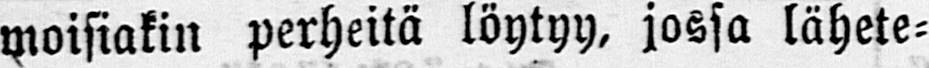moisiakin perheitä löytyy, jossa lähete-
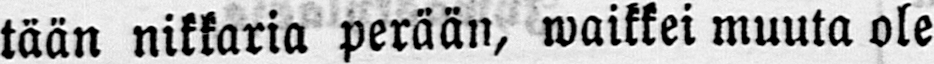tään nikkaria perään, waikkei muuta ole
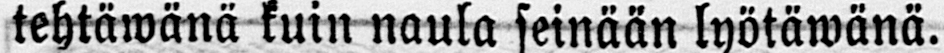tehtäwänä kuin naula seinään lyötäwänä.
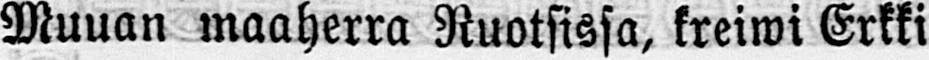Muuan maaherra Ruotsissa, kreiwi Erkki
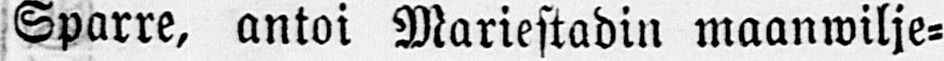Sparre, antoi Mariestadin maanwilje-
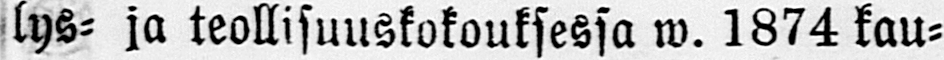lys- ja teollisuuskokouksessa w. 1874 kau-
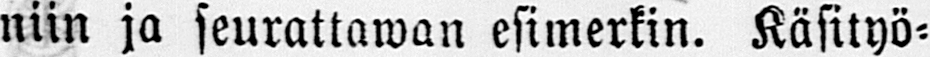niin ja seurattawan esimerkin. Käsityö-
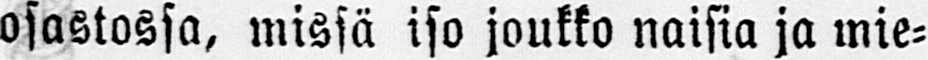osastossa, missä iso joukko naisia ja mie-
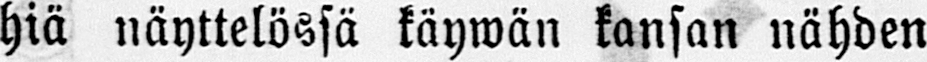hiä näyttelössä käywän kansan nähden
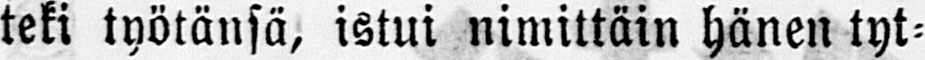teki työtänsä, istui nimittäin hänen tyt-
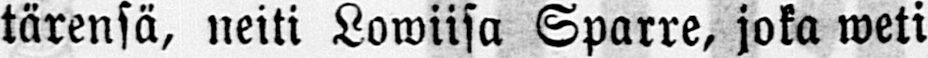tärensä, neiti Lowiisa Sparre, joka weti
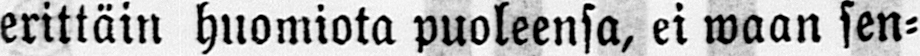erittäin huomiota puoleensa, ei waan sen-
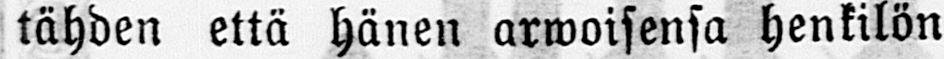tähden että hänen arwoisensa henkilön
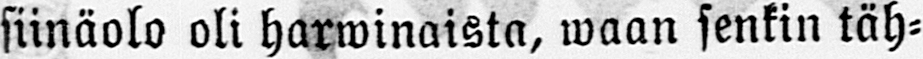siinäolo oli harwinaista, waan senkin täh-
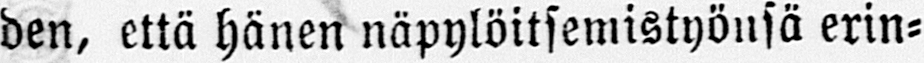den, että hänen näpylöitsemistyönsä erin-
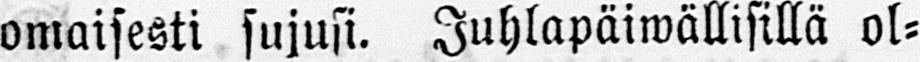omaisesti sujusi. Juhlapäiwällisillä ol-
